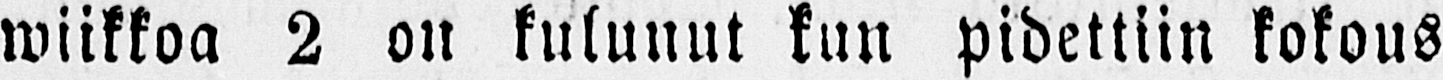wiikkoa 2 on kulunut kun pidettiin kokous
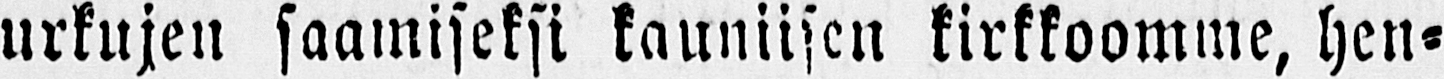urkujen saamiseksi kauniisen kirkkoomme, hen-
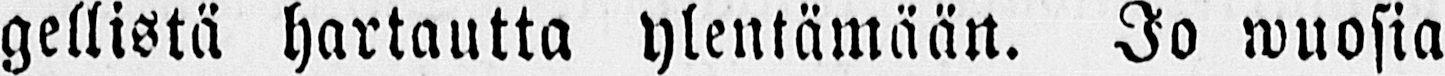gellistä hartautta ylentämään. Jo wuosia
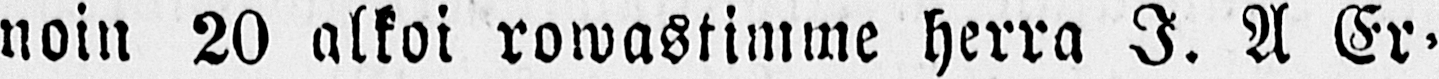noin 20 alkoi rowastimme herra I. A Er-
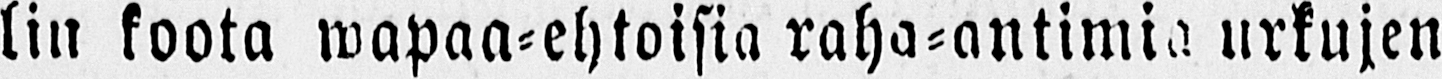lin koota wapaa-ehtoisia raha-antimia urkujen
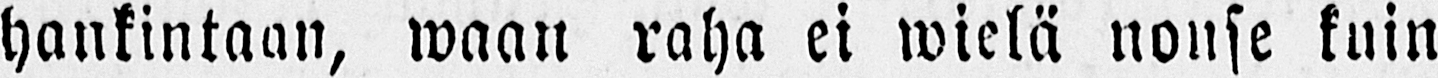hankintaan, waan raha ei wielä nouse kuin
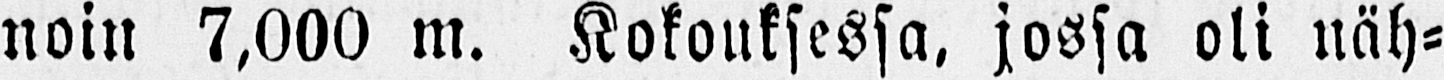noin 7,000 m. Kokouksessa, jossa oli näh-
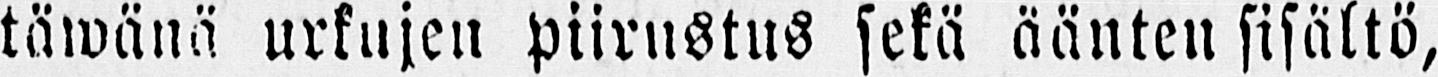täwänä urkujen piirustus sekä äänten sisältö,
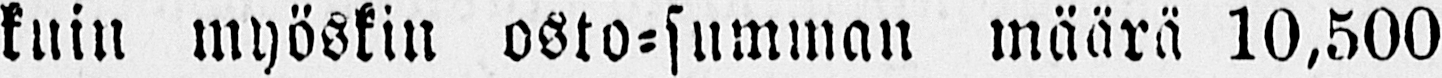kuin myöskin osto-summan määrä 10,500
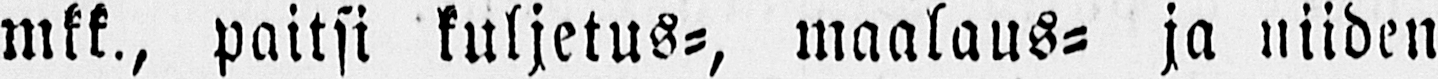mkk., paitsi kuljetus-, maalaus- ja niiden
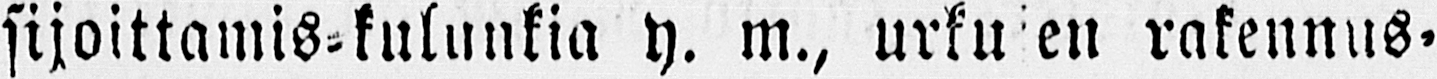sijoittamis-kulunkia y. m., urku@en rakennus-
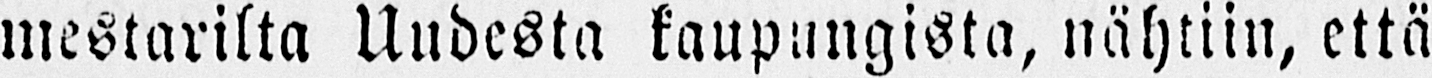mestaritta Uudesta kaupungista, nähtiin, että
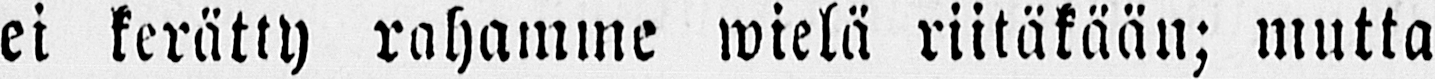ei kerätty rahamme wielä riitäkään; mutta
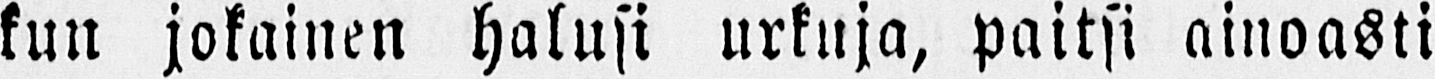kun jokainen halusi urkuja, paitsi ainoasti
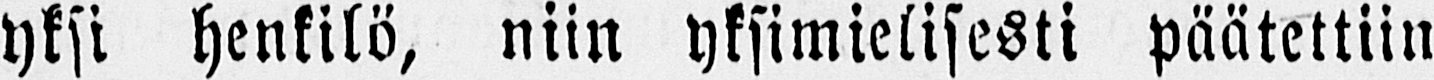yksi henkilö, niin yksimielisesti päätettiin
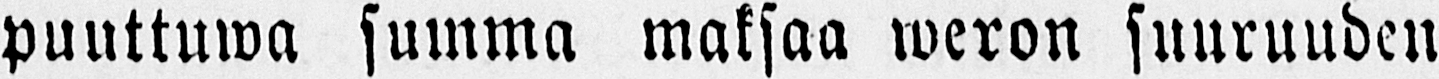puuttuwa summa maksaa weron suuruuden
